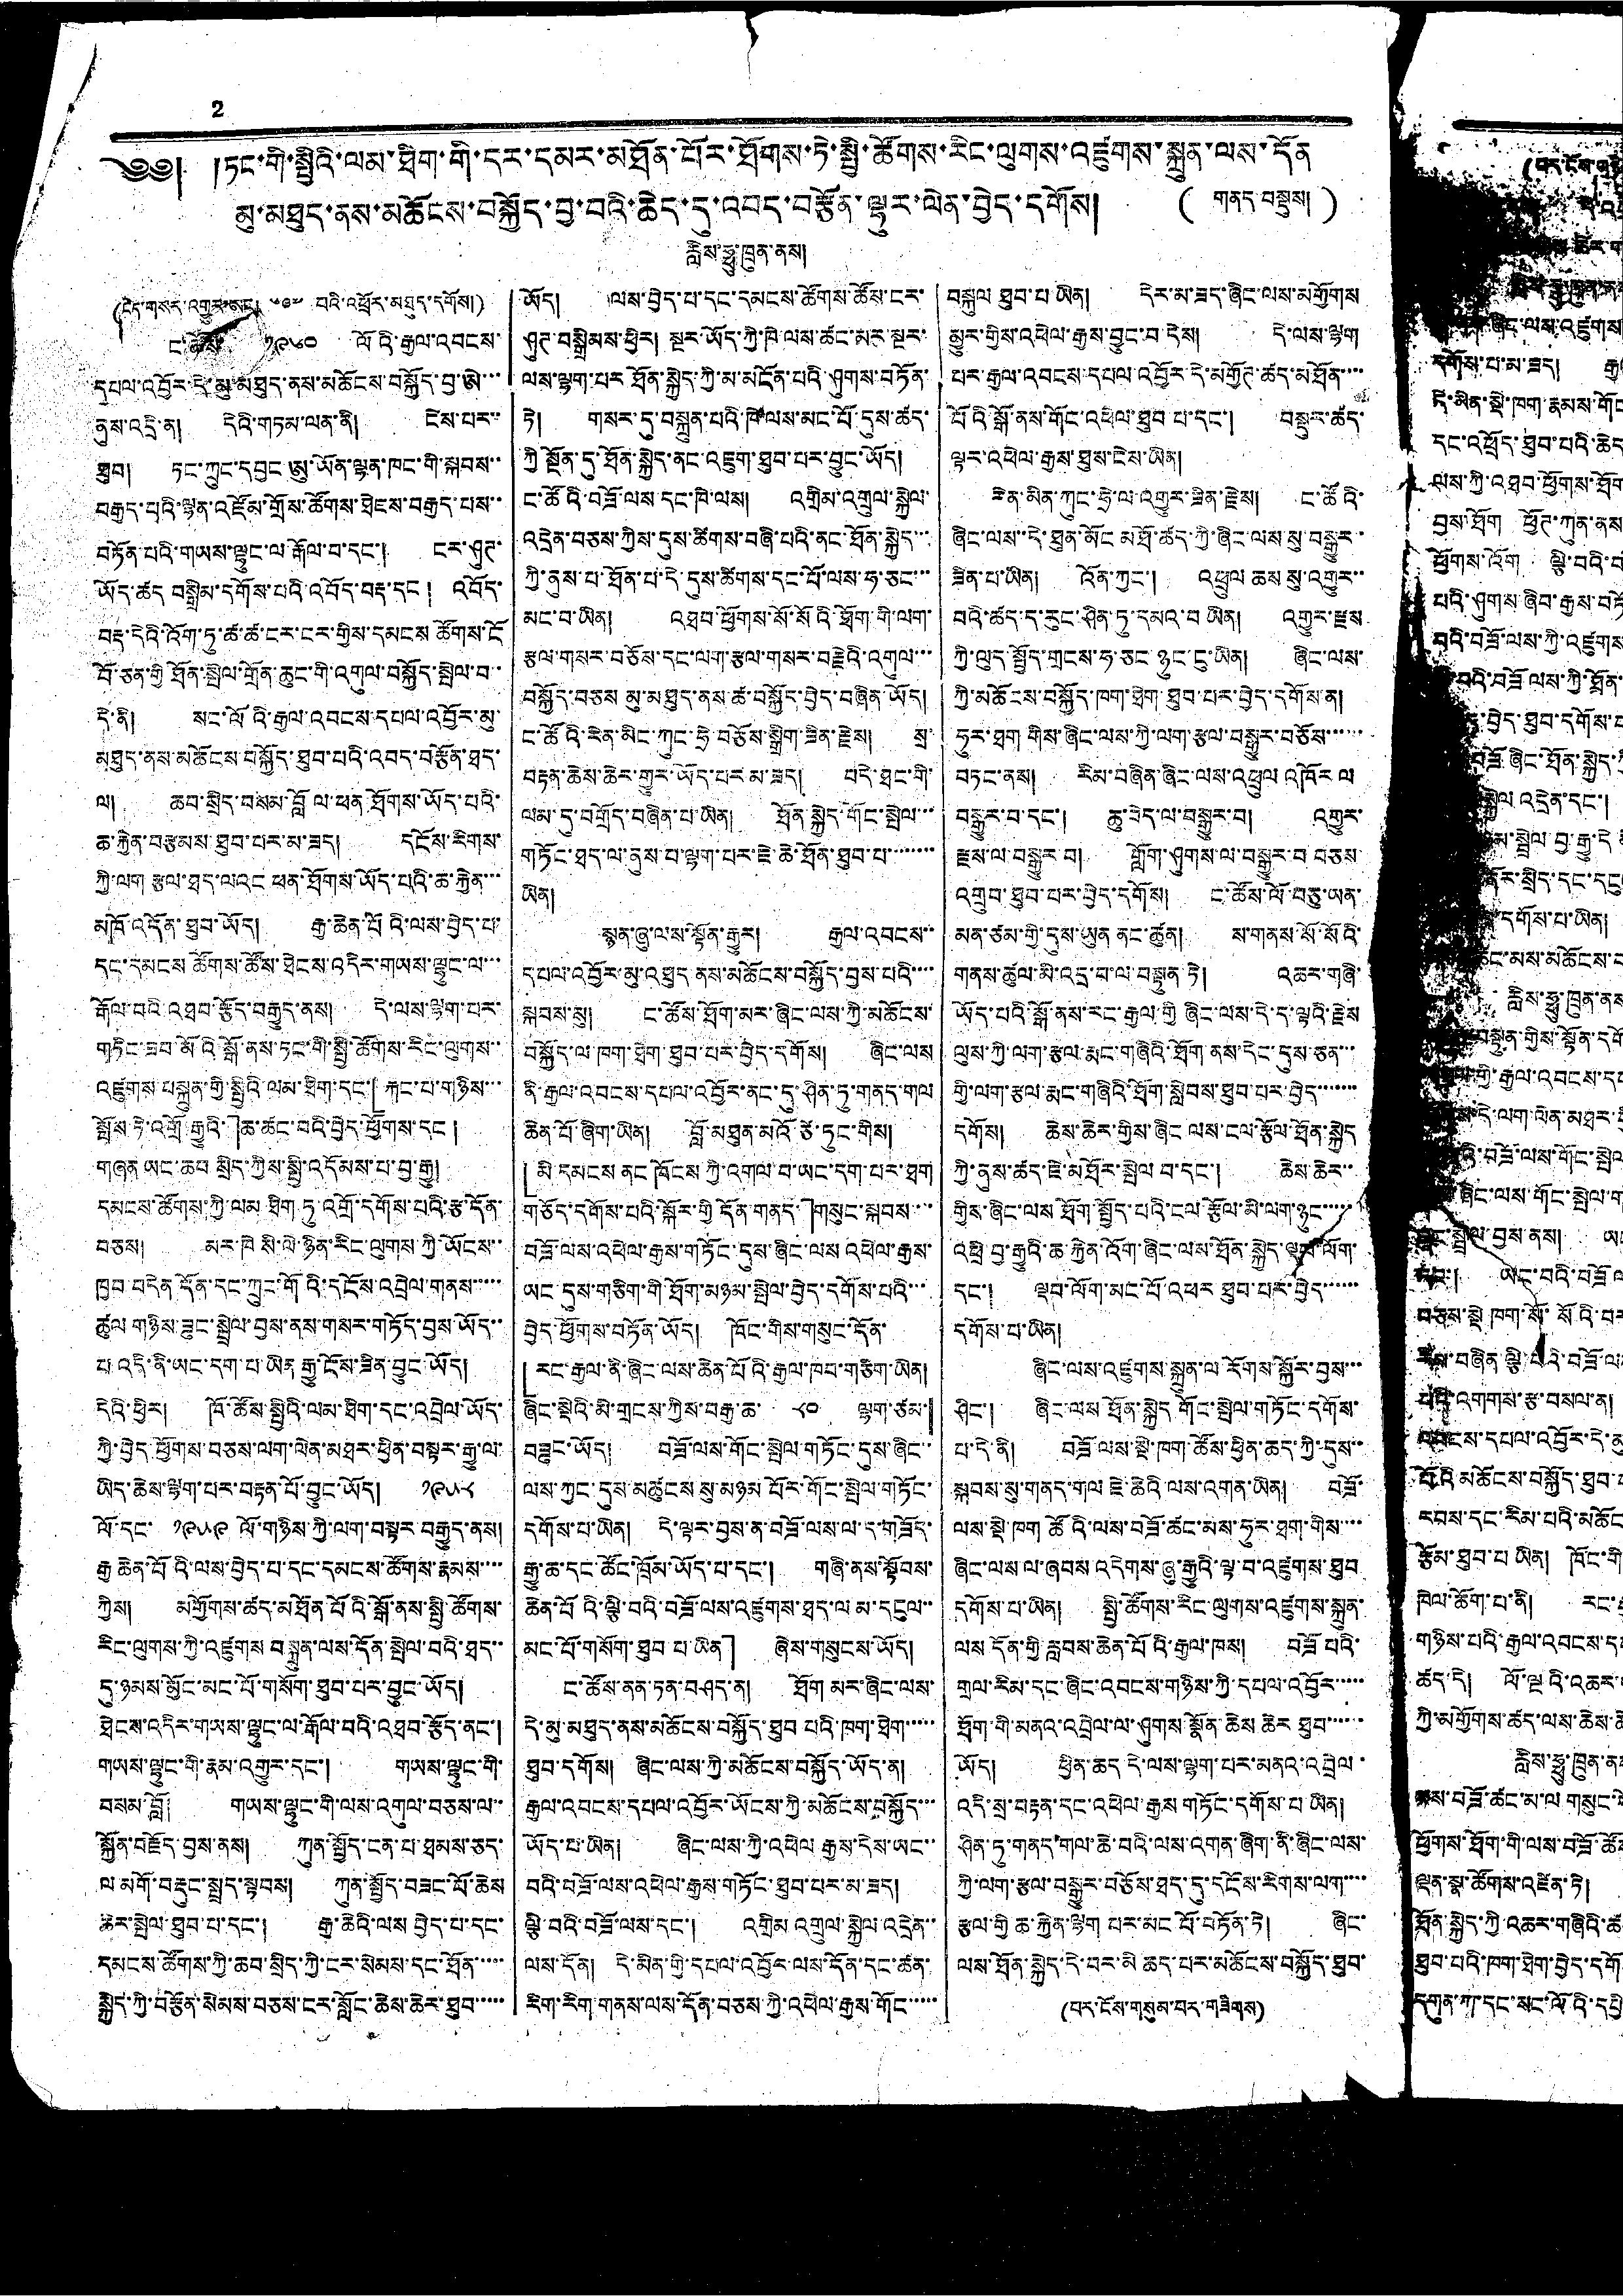2
༄༅། །ཏང་གི་སྤྱིའི་ལམ་ཐིག་གི་དར་དམར་མཐོན་པོར་ཐོགས་ཏེ་སྤྱི་ཚོགས་རིང་ལུགས་འཛུགས་སྐྲུན་ལས་དོན
མུ་མཐུད་ནས་མཆོངས་བསྐྱོད་བྱ་བའི་ཆེད་དུ་འབད་བརྩོན་ལྷུར་ལེན་བྱེད་དགོས། ( གནད བསྡུས། )
རླིས་ཧྥུ་ཁྲུན་ནས།
(ངེད་གསར་འགྱུར་ཨང། ༦༩༧ པའི་འཕྲོར་མཐུད་དགོས།)
ང་ཚོས་ ༡༩༦༠ ལོའི་རྒྱལ་འབངས་
དཔལ་འབྱོར་དེ་མུ་མཐུད་ནས་མཆོངས་བསྐྱོད་བྱ་ཨེ་་་
ནུས་འདྲི་ན། དེའི་གཏམ་ལན་ནི། ངེས་པར་་
ཐུབ། ཏང་ཀྲུང་དབྱང ཨུ་ཡོན་ལྷན་ཁང་གི་སྐབས་་
བརྒྱད་པའི་ལྷན་འཛོམ་གྲོས་ཚོགས་ཐེངས་བརྒྱད་པས་་
བཏོན་པའི་གཡས་ལྷུང་ལ རྒོལ་བ་དང་། ངར་ཤུཊ་
ཡོད་ཚད བསྒྲིམ་དགོས་པའི་འབོད་བརྡ་དང ། འབོད་
བརྡ་དེའི་འོག་ཏུ་ཚ་ཚ་ངར་ངར་གྱིས་དམངས ཚོགས་ངོ
བོ་ཅན་གྱི ཐོན་སྤེལ་གྲོན་ཆུང་གི་འགུལ་བསྐྱོད་སྤེ་བ་་
དེ་ནི། སང་ལོའི་རྒྱལ་འབངས་དཔལ་འབྱོར་མུ་
མཐུད་ནས་མཆོངས་བསྐྱོད་ཐུབ་པའི་འབད་བརྩོན་ཐད་
ལ། ཆབ་སྲིད་བསམ་བློ ལ་ཕན ཐོགས་ཡོད་པའི་
ཆ་རྐྱེན་བརྩམས་ཐུབ་པར་མ་ཟད། དངོས་རིགས་
ཀྱི་ལག རྩལ་ཐད་ལའང ཕན་ཐོགས་ཡོད་པའི་ཆ་རྐྱེན་་་
མཁོ་འདོན་ཐུབ་ཡོད། རྒྱ་ཆེན་པོའི་ལས་བྱེད་པ་
དང་དམངས ཚོགས་ཚོས་ཐེངས་འདིར་གཡས་ལྷུང་ལ་་་
རྒོལ་བའི འཐབ་རྩོད་བརྒྱུད་ནས། དེ་ལས་ལྷག་པར་
གཏིང་ཟབ་མོའི སྒོ་ནས་ཏང་གི་སྤྱི་ཚོགས་རིང་ལུགས་་
འཛུགས བསྐྲུན་གྱི་སྤྱིའི་ལམ་ཐིག་དང་「རྐང་པ་གཉིས་་་
སྤོས ཏེ་འགྲོ རྒྱུའི་」ཆ་ཚང་བའི་བྱེད་ཕྱགོས་དང །
གཞན ཡང་ཆབ སྲིད་ཀྱིས་སྤྱི་འདོམས་པ་བྱ་རྒྱུ།
དམངས་ཚོགས་ཀྱི་ལམ ཐིག ཏུ་འགྲོ་དགོས་པའི་རྩ་དོན་
བཅས། མར་ཁེ སི་ལེ་ཉིན་རིང་ལུགས་ཀྱི་ཡོངས་་
ཁྱབ བདེན དང་ཀྲུང་གོའི་དངོས་འབྲེལ་གནས་་་་་
ཚུལ གཉིས་ཟུང་སྦྲེལ་བྱས་ནས་གསར་གཏོད་བྱས་ཡོད་་
པ འདི་ནི་ཡང་དག་པ་ཡིན རྒྱུ་ངོས་ཟིན་བྱུང་ཡོད།
དེའི་ཕྱིར། ཁོ་ཚོས་སྤྱིའི་ལམ་ཐིག་དང་འབྲེལ་ཡོད་
ཀྱི་བྱེད ཕྱོགས་བཅས་ལག་ལེན་མཐར་ཕྱིན་བསྟར་རྒྱུ་ལ་
ཡིད་ཆེས་ལྷག་པར་བརྟན་པོ་བྱུང་ཡོད། ༡༩༥༨
ལོ་དང་ ༡༩༥༩ ལོ་གཉིས་ཀྱི་ལག་བསྟར བརྒྱུད་ནས།
རྒྱ ཆེན་པོའི་ལས་བྱེད་པ་དང་དམངས་ཚོགས་རྣམས་་་་
ཀྱིས། མགྱོགས་ཚད་མཐོན་པོའི་སྒོ་ནས་སྤྱི་ཚོགས་
རིང་ལུགས་ཀྱི་འཛུགས བསྐྲུན་ལས་དོན་སྤེལ་བའི་ཐད་་
དུ་ཉམས་མྱོང་མང་པོ་གསོག་ཐུབ་པར་བྱུང་ཡོད།
ཐེངས་འདིར་གཡས་ལྷུང་ལ་རྒོལ་བའི་འཐབ་རྩོད་ནང་།
གཡས་ལྷུང་གི་རྣམ་འགྱུར་དང་། གཡས་ལྷུང་གི་
བསམ་བློ། གཡས་ལྷུང་གི་ལས་འགུལ་བཅས་ལ་་
སྐྱོན་བརྗོད་བྱས་ནས། ཀུན་སྤྱོད་ངན་པ་ཐམས་ཅད་
ལ མགོ་བརྡུང་སྤྲད་སྟབས། ཀུན་སྤྱོད་བཟང་པོ་ཆེས
ཆེར་སྤེལ་ཐུབ་པ་དང་། རྒྱ་ཆེའི་ལས བྱེད་པ་དང་
དམངས་ཚོགས་ཀྱི་ཆབ་སྲིད་ཀྱི་ངར་སེམས་དང་ཐོན་་་་་
སྐྱེད་ཀྱི་བརྩོན་སེམས་བཅས་ངར་སློང་ཆེས་ཆེར་ཐུབ་་་་་
ཡོད། ལས་བྱེད་པ་དང་དམངས་ཚོགས་ཚོས་ངར་
ཤུཊ་བསྒྲིམས་ཕྱིར། སྔར་ཡོད་ཀྱི་ཁེ ལས་ཚང་མར་སྔར་
ལས་ལྷག་པར ཐོན་སྐྱེད་ཀྱི་མ་མངོན་པའི་ཤུགས་བཏོན་
ཏེ། གསར་དུ་བསྐྲུན་པའི་ཁེ་ལས་མང་པོ་དུས་ཚད་
ཀྱི སྔོན་དུ་ཐོན་སྐྱེད་ནང་འཇུག་ཐུབ་པར་བྱུང་ཡོད།
ང་ཚོའི་བཟོ་ལས་དང་ཁེ་ལས། འགྲིམ་འགྲུལ་སྐྱེལ་
འདྲེན་བཅས་ཀྱིས་དུས་ཚིགས་བཞི་པའི་ནང་ཐོན་སྐྱེད་་་
ཀྱི་ནུས་པ་ཐོན་པ་དེ་དུས་ཚིགས་དང་པོ་ལས་ཧ་ཅང་་་
མང་བ་ཡིན། འཐབ་ཕྱོགས་སོ་སོའི་ཐོག་གི་ལག་
རྩལ་གསར་བཅོས་དང་ལག་རྩལ་གསར་བརྗེའི་འགུལ་་་
བསྐྱོད་བཅས མུ་མཐུད་ནས་ཚ་བསྐྱོད་བྱེད་བཞིན་ཡོད།
ང་ཚོའི་རེན་མིན་ཀུང་ཧྲེ་བཅོས་སྒྲིག་ཟིན་རྗེས། སྲ་
བརྟན་ཆེས་ཆེར་གྱུར་ཡོད་པར མ་ཟད། བདེ་ཐང་གི་
ལམ་དུ་བགྲོད་བཞིན་པ་ཡིན། ཐོན སྐྱེད་གོང་སྤེལ་་་
གཏོང་ཐད་ལ་ནུས་པ་ལྷག་པར་ཇེ་ཆེ་ཐོན་ཐུབ་པ་་་་་་་་
ཡིན།
སྙན་ཞུ་ལས་སྟོན་རྒྱུར། རྒྱལ་འབངས་་
དཔལ་འབྱོར་མུ་འཐུད ནས་མཆོངས་སྐྱོད་བྱས་པའི་་་་
སྐབས་སུ། ང་ཚོས་ཐོག་མར་ཞིང་ལས་ཀྱི་མཆོངས་
བསྐྱོད་ལ་ཁག་ཐེག་ཐུབ་པར་བྱེད་དགོས། ཞིང་ལས
ནི་རྒྱལ་འབངས་དཔལ་འབྱོར་ནང་དུ་ཤིན་ཏུ་གནད་གལ
ཆེན་པོ་ཞིག་ཡིན། བློ་མཐུན་མའོ་ཙེ་ཏུང་གིས།
「མི དམངས ནང ཁོངས ཀྱི་འགལ་བ་ཡང་དག་པར་ཐག
གཅོད་དགོས་པའི་སྐོར་གྱི དོན་གནད་」གསུང་སྐབས་་་
བཟོ་ལས་འཕེལ་རྒྱས་གཏོང་དུས་ཞིང་ལས འཕེལ་རྒྱས་
ཡང དུས་གཅིག་གི་ཐོག་མཉམ་སྤེལ་བྱེད་དགོས་པའི་་་
བྱེད་ཕྱོགས་བཏོན་ཡོད། ཁོང་གིས་གསུང་དོན་
「རང་རྒྱལ་ནི་ཞིང་ལས་ཆེན་པོའི་རྒྱལ་ཁབ་གཅིག་ཡིན།
ཞིང་སྡེའི་མི་གྲངས་ཀྱིས་བརྒྱ་ཆ་ ༨༠ ལྷག་ཙམ་
བཟུང་ཡོད། བཟོ་ལས་གོང་སྤེལ་གཏོང་དུས་ཞིང་་
ལས་ཀྱང་དུས་མཚུངས་སུ་མཉམ པོར་གོང་སྤེལ་གཏོང་
དགོས་པ་ཡིན། དེ་ལྟར་བྱས་ན་བཟོ་ལས་ལ་ད་གཟོད་
རྒྱུ་ཆ་དང་ཚོང་ཁྲོམ་ཡོད་པ་དང་། གཞི་ནས་སྟོབས་
ཆེན་པོའི་ལྕི་བའི་བཟོ་ལས་འཛུགས་ཐད་ལ མ་དངུལ་་
མང་པོ་གསོག་ཐུབ པ་ཡིན」 ཞེས་གསུངས་ཡོད།
ང་ཚོས་ནན་ཏན་བཤད་ན། ཐོག མར་ཞིང་ལས་
དེ་མུ་མཐུད་ནས་མཆོངས་བསྐྱོད་ཐུབ པའི་ཁག་ཐེག་་་་་
ཐུབ་དགོས། ཞིང་ལས་ཀྱི་མཆོངས་བསྐྱོད་ཡོད་ན།
རྒྱལ་འབངས་དཔལ་འབྱོར་ཡོངས་ཀྱི་མཆོངས་བསྐྱོད་་་
ཡོད་པ་ཡིན། ཞིང་ལས་ཀྱི་འཕེལ རྒྱས་དེས་ཡང་་
བའི་བཟོ་ལས་འཕེལ་རྒྱས་གཏོང་ཐུབ་པར་མ་ཟད།
ལྕི་བའི་བཟོ་ལས་དང་། འགྲིམ འགྲུལ་སྐྱེལ་འདྲེན་་
ལས་དོན། དེ་མིན་གྱི་དཔལ་འབྱོར་ལས་དོན་དང་ཚན་
རིག་རིག་གནས་ལས་དོན་བཅས ཀྱི་འཕེལ་རྒྱས་གོང་་་་་
བསྐུལ ཐུབ་པ ཡིན། དེར་མ་ཟད་ཞིང་ལས་མགྱོགས
མྱུར་གྱིས་འཕེལ་རྒྱས་བྱུང་བ་དེས། དེ་ལས་ལྷག
པར་རྒྱལ་འབངས་དཔལ་འབྱོར་དེ་མགྱོཊ་ཚད་མཐོན་་་་
པོའི་སྒོ་ནས་གོང་འཕེལ་ཐུབ པ་དང་། བསྡུར་ཚད་
ལྟར་འཕེལ་རྒྱས་ཐུས་ངེས་ཡིན།
རེན་མིན་ཀུང་ཧྲེ་ལ་འགྱུར་ཟིན་རྗེས། ང་ཚོའི་
ཞིང་ལས་དེ་ཐུན་མོང མཐོ་ཚད་ཀྱི་ཞིང་ལས་སུ་བསྒྱུར་་
ཟིན་པ་ཡིན། འོན་ཀྱང་། འཕྲུལ ཆས སུ་འགྱུར་་
བའི་ཚད་ད་རུང་ཤིན་ཏུ་དམའ་བ ཡིན། འགྱུར་རྫས
ཀྱི་ལུད་སྤྱོད་གྲངས་ཧ་ཅང་ཉུང་ངུ་ཡིན། ཞིང་ལས་
ཀྱི་མཆོངས་བསྐྱོད་ཁག་ཐེག་ཐུབ་པར་བྱེད་དགོས་ན།
ཧུར་ཐག གིས་ཞིང་ལས་ཀྱི་ལག་རྩལ་བསྒྱུར་བཅོས་་་་་་
བཏང་ནས། རིམ་བཞིན་ཞིང་ལས་འཕྲུལ འཁོར ལ
བསྒྱུར་བ་དང་། ཆུ་བེད་ལ་བསྒྱུར་བ། འགྱུར་
རྫས་ལ་བསྒྱུར་བ། གློག་ཤུགས་ལ་བསྒྱུར་བ བཅས་
འགྲུབ་ཐུབ་པར་བྱེད་དགོས། ང་ཚོས་ལོ་བཅུ་ཡན་
མན་ཙམ་གྱི་དུས་ཡུན ནང་ཚུན། ས་གནས་སོ་སོའི་
གནས་ཚུལ་མི་འདྲ་བ་ལ་བསྟུན་ཏེ། འཆར་གཞི་
ཡོད་པའི་སྒོ་ནས་རང་རྒྱལ་གྱི ཞིང་ལས་དེ་ད་ལྟའི་རྗེས
ལུས་ཀྱི་ལག་རྩལ་རྨང་གཞིའི་ཐོག་ནས་དེང་དུས་ཅན་་་
གྱི་ལག་རྩལ་རྨང་གཞིའི་ཐོག་སླེབས་ཐུབ་པར་བྱེད་་་་་་་
དགོས། ཆེས་ཆེར་གྱིས་ཞིང ལས་ངལ་རྩོལ་ཐོན་སྐྱེད
ཀྱི་ནུས་ཚད་ཇེ་མཐོར་སྤེལ བ་དང་། ཆེས་ཆེར་་
གྱིས་ཞིང་ལས ཐོག་སྤྱོད་པའི་ངལ་རྩོལ་མི་ལག་ཉུང་་་་་
འཕྲི བྱ་རྒྱུའི་ཆ་རྐྱེན་འོག་ཞིང་ལས་ཐོན་སྐྱེད་ལྡབ་ལོག་
དང་། ལྡབ་ལོག་མང་པོ་འཕར ཐུབ་པར་བྱེད་་་་་་
དགོས་པ་ཡིན།
ཞིང་ལས་འཛུགས་སྐྲུན་ལ རོགས་སྐྱོར་བྱས་་་
ཤིང་། ཞིང་ལས ཐོན་སྐྱེད གོང་སྤེལ་གཏོང་དགོས་
པ་དེ་ནི། བཟོ་ལས་སྡེ་ཁག་ཚོས་ཕྱིན་ཆད་ཀྱི་དུས་་
སྐབས་སུ་གནད་གལ ཇེ་ཆེའི་ལས་འགན་ཡིན། བཟོ་
ལས་སྡེ་ཁག ཚོའི་ལས་བཟོ་ཚང་མས་ཧུར་ཐག་གིས་་་་
ཞིང་ལས་ལ་ཞབས འདེགས་ཞུ་རྒྱུའི་ལྟ་བ་འཛུགས་ཐུབ
དགོས་པ་ཡིན། སྤྱི་ཚོགས་རིང་ལུགས་འཛུགས་སྐྲུན་
ལས དོན་གྱི་རླབས་ཆེན་པོའི་རྒྱལ་ཁས། བཟོ པའི་
གྲལ་རིམ་དང་ཞིང་འབངས་གཉིས་ཀྱི་དཔལ་འབྱོར་་་་་
ཐོག་གི་མནའ་འབྲེལ་ལ་ཤུགས་སྣོན་ཆེས ཆེར ཐུབ་་་་་་
ཡོད། ཕྱིན་ཆད དེ་ལས་ལྷག་པར་མནའ་འབྲེལ་
འདི་སྲ་བརྟན་དང་འཕེལ་རྒྱས གཏོང་དོགས་པ་ཡིན།
ཤིན་ཏུ་གནད་གལ་ཆེ་བའི་ལས་འགན་ཞིག་ནི་ཞིང་ལས་
ཀྱི་ལག་རྩལ་བསྒྱུར་བཅོས་ཐད་དུ་དངོས་རིགས་ལག་་་་
རྩལ་གྱི ཆ་རྐྱེན་ལྷག པར་མང པོ་བཏོན་ཏེ། ཞིང་
ལས་ཐོན་སྐྱེད་དེ་བར་མི ཆད་པར་མཆོངས་བསྐྱོད་ཐུབ་
(པར་ངོས་གསུམ་པར་གཟིགས)
